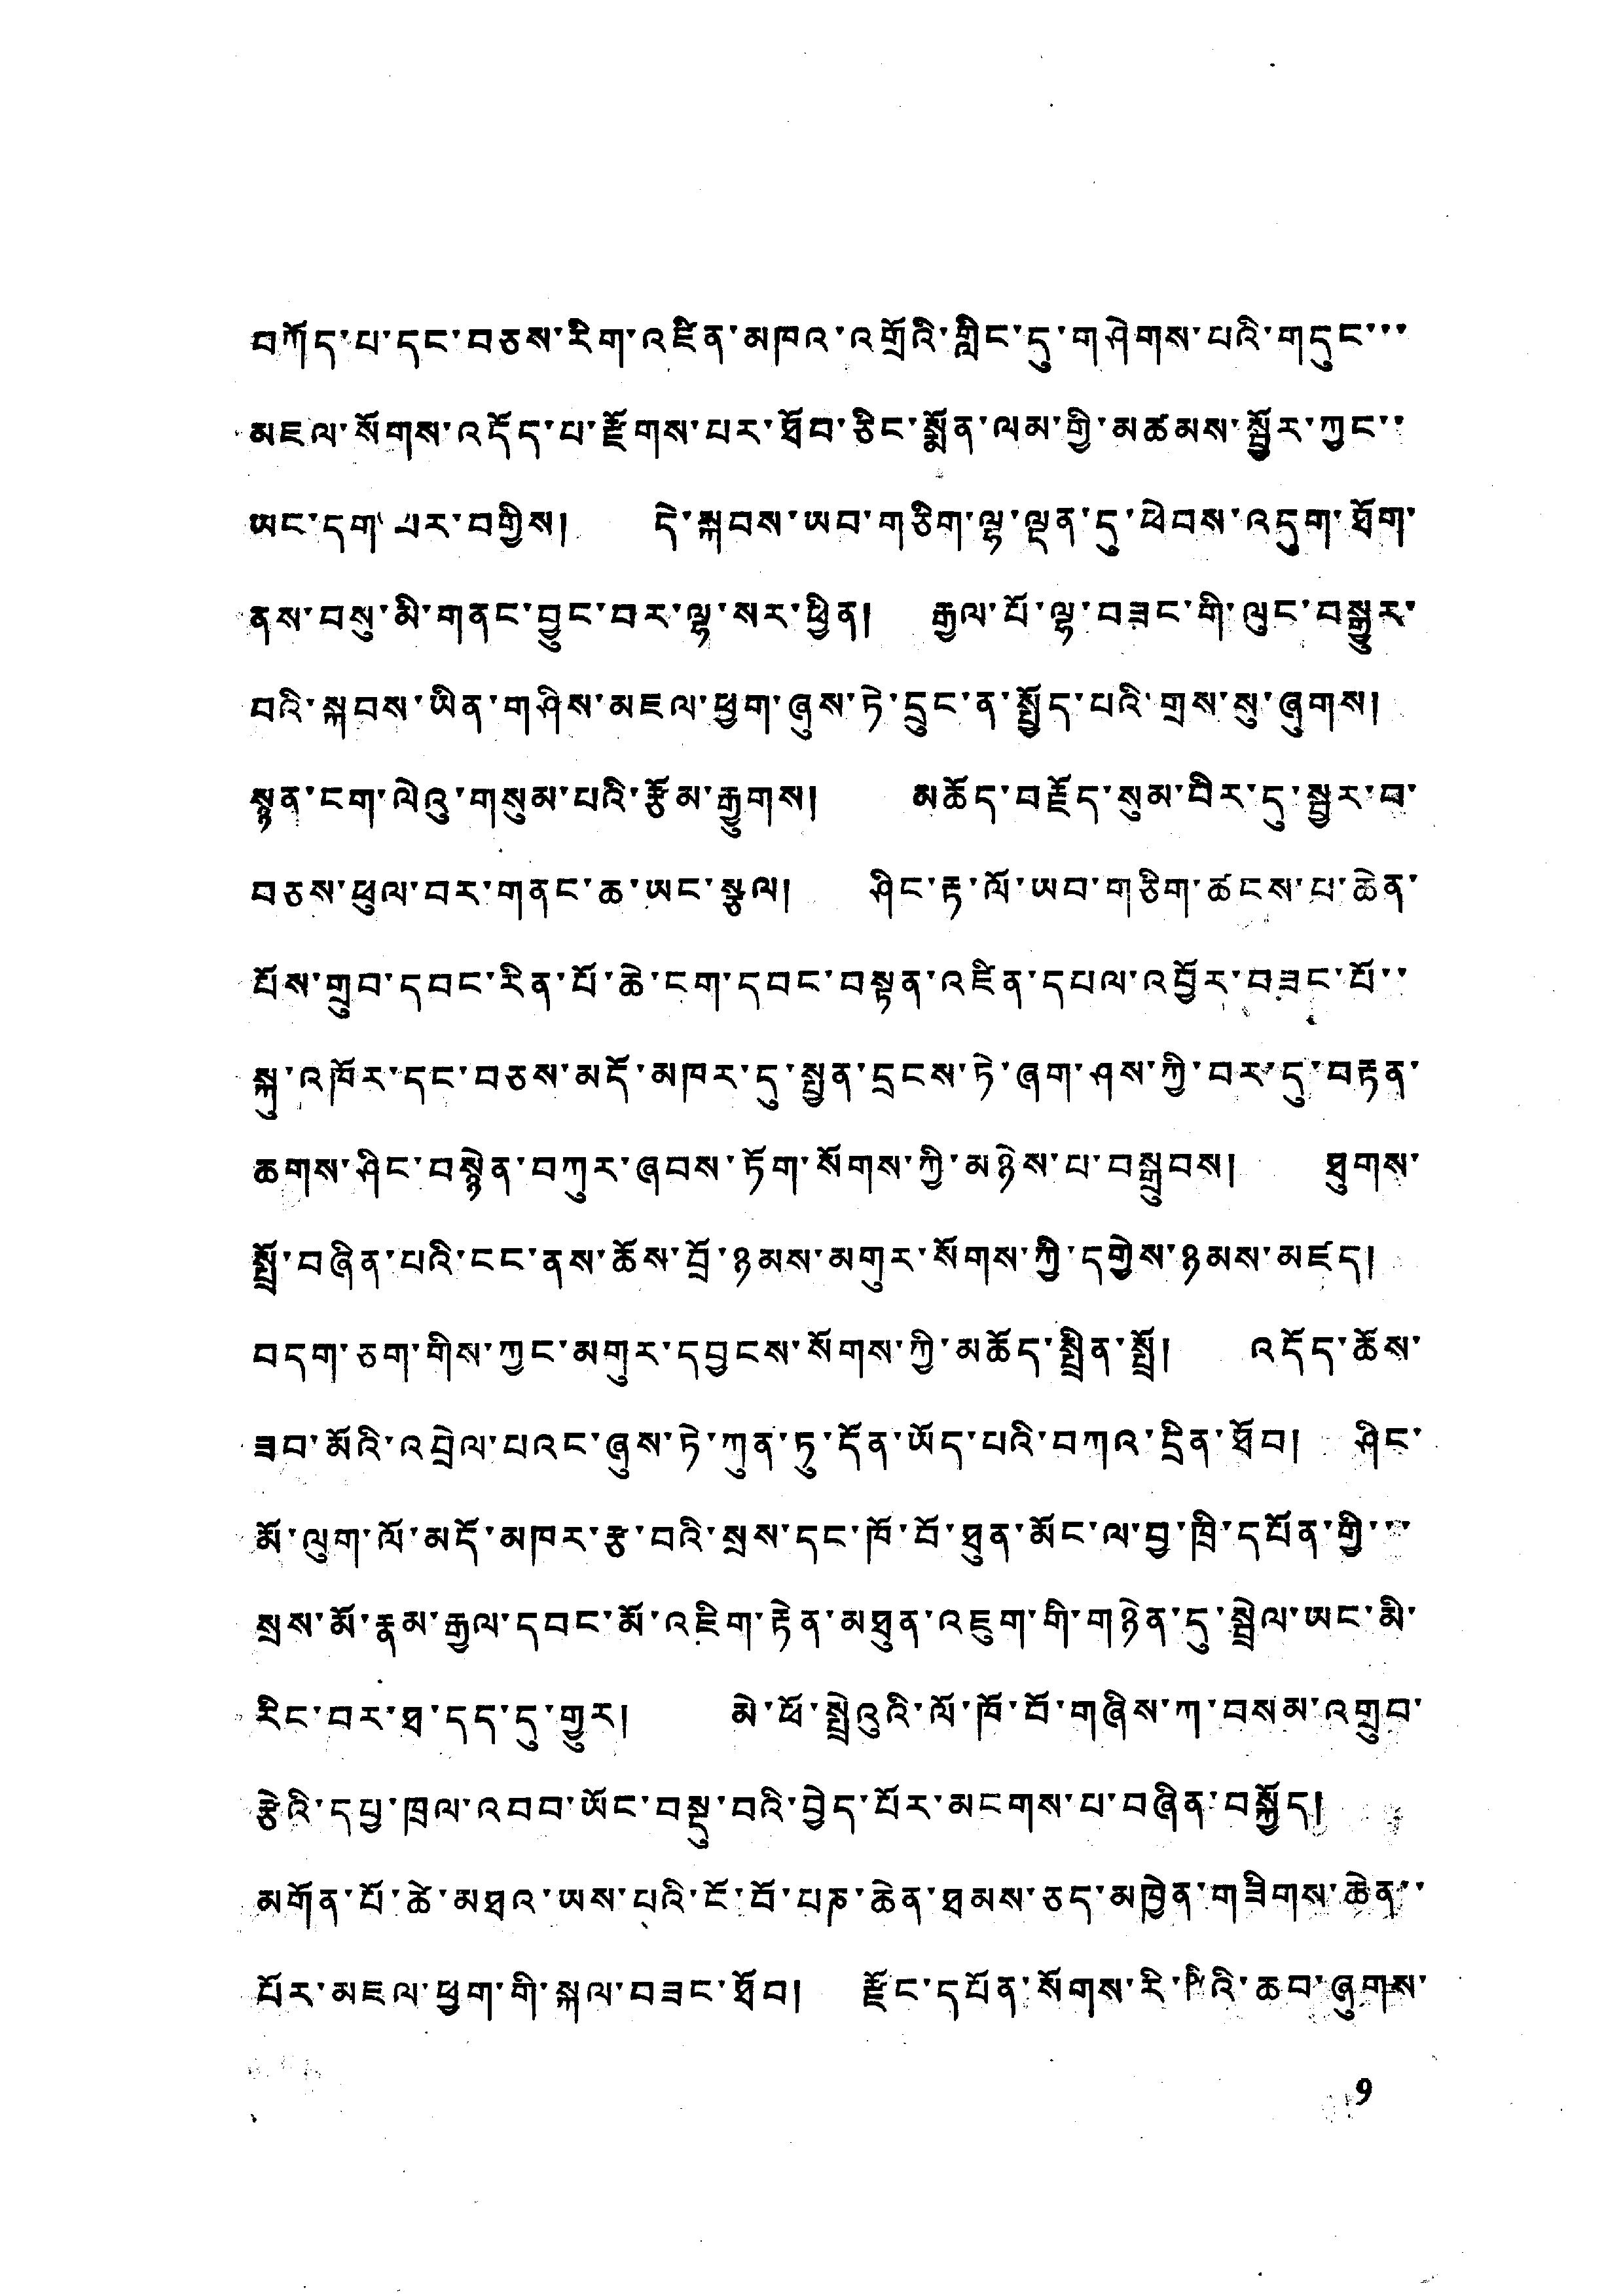བཀོད་པ་དང་བཅས་རིག་འཛིན་མཁའ་འགྲོའི་གླིང་དུ་གཤེགས་པའི་གདུང་་་
མཇལ་སོགས་འདོད་པ་རྫོགས་པར་ཐོབ་ཅིད་སྨོན་ལམ་གྱི་མཚམས་སྦྱོར་ཀྱང་་
ཡང་དག་པར་བགྱིས། དེ་སྐབས་ཡབ་གཅིག་ལྷ་ལྡན་དུ་ཕེབས་འདུག་ཐོག་
ནས་བསུ་མི་གནང་བྱུང་བར་ལྷ་སར་ཕྱིན། རྒྱལ་པོ་ལྷ་བཟང་གི་ལུང་བསྒྱུར་
བའི་སྐབས་ཡིན་གཤིས་མཇལ་ཕྱག་ཞུས་ཏེ་དྲུང་ན་སྤྱོད་པའི་གྲས་སུ་ཞུགས།
སྙན་ངག་ལེའུ་གསུམ་པའི་རྩོམ་རྒྱུགས། མཆོད་བརྗོད་སུམ་བིར་དུ་སྦྱར་བ་
བཅས་ཕུལ་བར་གནང་ཆ་ཡང་སྩལ། ཤིང་རྟ་ལོ་ཡབ་གཅིག་ཚངས་པ་ཆེན་
པོས་གྲུབ་དབང་རིན་པོ་ཆེ་ངག་དབང་བསྟན་འཛིན་དཔལ་འབྱོར་བཟང་པོ་་
སྐུ་འཁོར་དང་བཅས་མདོ་མཁར་དུ་སྤྱན་དྲངས་ཏེ་ཞག་ཤས་ཀྱི་བར་དུ་བརྟན་
ཆགས་ཤིང་བསྙེན་བཀུར་ཞབས་ཏོག་སོགས་ཀྱི་མཉེས་པ་བསྒྲུབས། ཐུགས་
སྤྲོ་བཞིན་པའི་ངང་ནས་ཆོས་བྲོ་ཉམས་མགུར་སོགས་ཀྱི་དགྱེས་ཉམས་མཛད།
བདག་ཅག་གིས་ཀྱང་མགུར་དབྱངས་སོགས་ཀྱི་མཆོད་སྤྲིན་སྤྲོ། འདོད་ཆོས་
ཟབ་མོའི་འབྲེལ་པའང་ཞུས་ཏེ་ཀུན་ཏུ་དོན་ཡོད་པའི་བཀའ་དྲིན་ཐོབ། ཤིང་་
མོ་ལུག་ལོ་མདོ་མཁར་རྩ་བའི་སྲས་དང་ཁོ་བོ་ཐུན་མོང་ལ་བྱ་ཁྲི་དཔོན་གྱི་་་
སྲས་མོ་རྣམ་རྒྱལ་དབང་མོ་འཇིག་རྟེན་མཐུན་འཇུག་གི་གཉེན་དུ་སྦྲེལ་ཡང་མི་
རིང་བར་ཐ་དད་དུ་གྱུར། མེ་ཕོ་སྤྲེའུའི་ལོ་ཁོ་བོ་གཞིས་ཀ་བསམ་འགྲུབ་
རྩེའི་དཔྱ་ཁྲལ་འབབ་ཡོང་བསྡུ་བའི་བྱེད་པོར་མངགས་པ་བཞིན་བསྐྱོད།
མགོན་པོ་ཚེ་མཐའ་ཡས་པའི་ངོ་བོ་པཎ་ཆེན་ཐམས་ཅད་མཁྱེན་གཟིགས་ཆེན་་
པོར་མཇལ་ཕྱག་གི་སྐལ་བཟང་ཐོབ། རྫོང་དཔོན་སོགས་རི་ཥིའི་ཆབ་ཞུགས་
9
